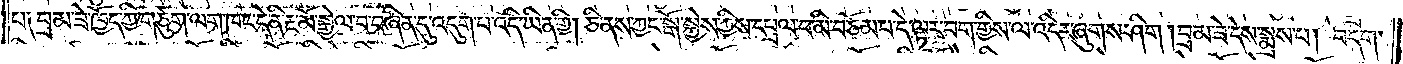པ༑ བྲམ་ཟེ་ཁྱོད་ཀྱི་གཙུག་ལག་ཁང་དེ་ནི་རྔ་མོ་སྒྱེལ་བ་བཞིན་དུ་འདུག་པ་འདི་ཡིན་གྱི། ཅི་ནས་ཀྱང་སྒོ་སྐྱེས་ཀྱིས་དཔྲལ་བ་མི་བཅོམ་པ་དེ་ལྟར་བག་གྱིས་ལ་འདིར་ཞུགས་ཤིག །བྲམ་ཟེ་དེས་སྨྲས་པ། བདག་
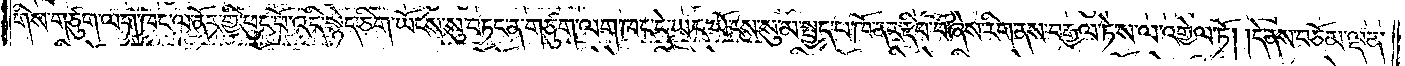གིས་གཙུག་ལག་ཁང་ལ་ནོར་གྱི་ཕུང་པོ་འདི་སྙེད་ཅིག་ཡོངས་སུ་བཏང་ན་གཙུག་ལག་ཁང་དེ་ཡང་ཡོངས་སུ་མ་སྤྱད་པ་ཁོ་ནར་རྡིབ་བོ་ཞེས་རིག་ནས་བརྒྱལ་ཏེ་ས་ལ་འགྱེལ་ཏོ། །དེ་ནས་བཅོམ་ལྡན་
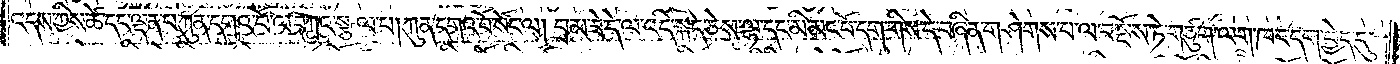འདས་ཀྱིས་ཚེ་དང་ལྡན་པ་ཀུན་དགའ་བོ་ལ་བཀའ་སྩལ་པ། ཀུན་དགའ་བོ་སོང་ལ། བྲམ་ཟེ་དེ་ལ་འདི་སྐད་ཅེས་ལྷ་དང་མི་མང་པོ་དག་གིས་དེ་བཞིན་གཤེགས་པ་ལ་བསྔོས་ཏེ་གཙུག་ལག་ཁང་དག་བྱེད་དུ་
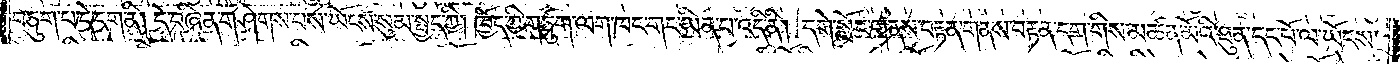བཅུག་པ་དེ་དག་ནི། དེ་བཞིན་གཤེགས་པས་ཡོངས་སུ་མ་སྤྱད་ཀྱི། ཁྱོད་ཀྱི་གཙུག་ལག་ཁང་གང་ཡིན་པ་འདི་ནི། དགེ་སློང་གནས་བརྟན་གནས་བརྟན་དག་གིས་མཚན་མོའི་ཐུན་དང་པོ་ལ་ཡོངས་
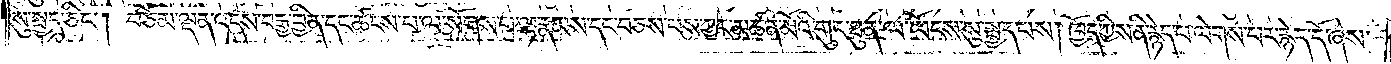སུ་སྤྱད་ཅིང༌། བཅོམ་ལྡན་འདས་བརྒྱ་བྱིན་དང་ཚངས་པ་ལ་སོགས་པ་ལྷ་རྣམས་དང་བཅས་པས་ཀྱང་མཚན་མོའི་གུང་ཐུན་ལ་ཡོངས་སུ་སྤྱད་པས། ཁྱོད་ཀྱིས་ནི་རྙེད་པ་ལེགས་པར་རྙེད་དོ་ཞེས་
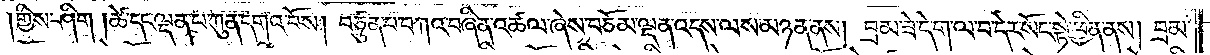གྱིས་ཤིག །ཚེ་དང་ལྡན་པ་ཀུན་དགའ་བོས། བཙུན་པ་བཀའ་བཞིན་འཚལ་ཞེས་བཅོམ་ལྡན་འདས་ལས་མཉན་ནས། བྲམ་ཟེ་དེ་ག་ལ་བ་དེར་སོང་སྟེ་ཕྱིན་ནས། བྲམ་
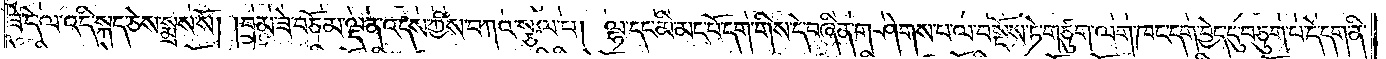ཟེ་དེ་ལ་འདི་སྐད་ཅེས་སྨྲས་སོ། །བྲམ་ཟེ་བཅོམ་ལྡན་འདས་ཀྱིས་བཀའ་སྩལ་པ། ལྷ་དང་མི་མང་པོ་དག་གིས་དེ་བཞིན་གཤེགས་པ་ལ་བསྔོས་ཏེ་གཙུག་ལག་ཁང་དག་བྱེད་དུ་བཅུག་པ་དེ་དག་ནི་
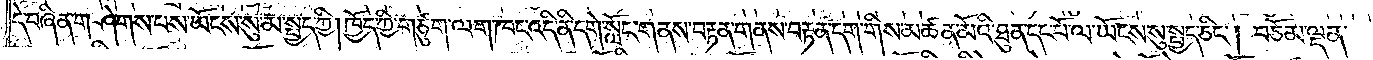དེ་བཞིན་གཤེགས་པས་ཡོངས་སུ་མ་སྤྱད་ཀྱི། ཁྱོད་ཀྱི་གཙུག་ལག་ཁང་འདི་ནི་དགེ་སློང་གནས་བརྟན་གནས་བརྟན་དག་གིས་མཚན་མོའི་ཐུན་དང་པོ་ལ་ཡོངས་སུ་སྤྱད་ཅིང༌། བཅོམ་ལྡན་
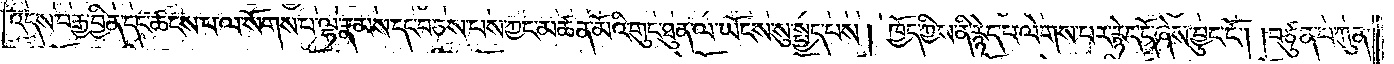འདས་བརྒྱ་བྱིན་དང་ཚངས་པ་ལ་སོགས་པ་ལྷ་རྣམས་དང་བཅས་པས་ཀྱང་མཚན་མོའི་གུང་ཐུན་ལ་ཡོངས་སུ་སྤྱད་པས། ཁྱོད་ཀྱིས་ནི་རྙེད་པ་ལེགས་པར་རྙེད་དོ་ཞེས་བྱུང་ངོ༌། །བཙུན་པ་ཀུན་
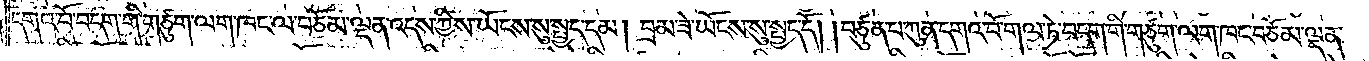དགའ་བོ་བདག་གི་གཙུག་ལག་ཁང་ལ་བཅོམ་ལྡན་འདས་ཀྱིས་ཡོངས་སུ་སྤྱད་དམ། བྲམ་ཟེ་ཡོངས་སུ་སྤྱད་དོ། །བཙུན་པ་ཀུན་དགའ་བོ་གལ་ཏེ་བདག་གི་གཙུག་ལག་ཁང་བཅོམ་ལྡན་
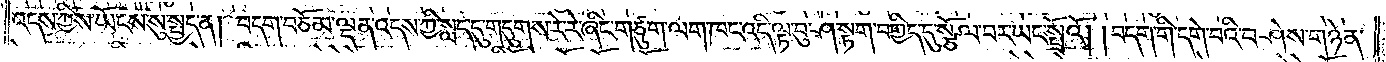འདས་ཀྱིས་ཡོངས་སུ་སྤྱད་ན། བདག་བཅོམ་ལྡན་འདས་ཀྱི་སླད་དུ་གདུགས་རེ་རེ་ཞིང་གཙུག་ལག་ཁང་འདི་ལྟ་བུ་ཤ་སྟག་བགྱིད་དུ་སྩོལ་བར་ཡང་སྤྲོའོ། །བདག་གི་དགེ་བའི་བཤེས་གཉེན་
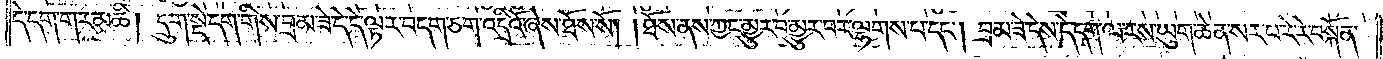དེ་དག་གར་མཆི། དྲུག་སྡེ་དག་གིས་བྲམ་ཟེ་དེ་དེ་ལྟར་བདག་ཅག་འདྲིའོ་ཞེས་ཐོས་སོ། །ཐོས་ནས་ཀྱང་མྱུར་བ་མྱུར་བར་ལྷགས་པ་དང༌། བྲམ་ཟེ་དེས་དེ་དག་ལ་རས་ཡུག་ཆེན་སར་པ་རེ་རེ་བསྐོན་
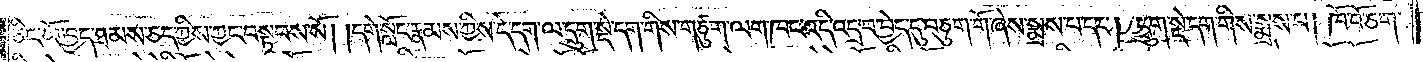ཅིང་ཡོ་བྱད་ཐམས་ཅད་ཀྱིས་ཀྱང་བསྟབས་སོ། །དགེ་སློང་རྣམས་ཀྱིས་དེ་དག་ལ་དྲུག་སྡེ་དག་གིས་གཙུག་ལག་ཁང་འདི་འདྲ་བ་བྱེད་དུ་བཅུག་གོ་ཞེས་སྨྲས་པ་དང༌། དྲུག་སྡེ་དག་གིས་སྨྲས་པ། ཁོ་བོ་ཅག་
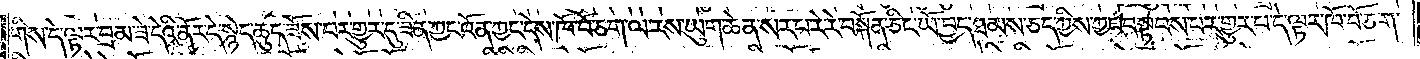གིས་དེ་ལྟར་བྲམ་ཟེ་དེའི་ནོར་དེ་སྙེད་ཆུད་ཟོས་པར་གྱུར་དུ་ཟིན་ཀྱང་འོན་ཀྱང་དེས་ཁོ་བོ་ཅག་ལ་རས་ཡུག་ཆེན་སར་པ་རེ་རེ་བསྐོན་ཅིང་ཡོ་བྱད་ཐམས་ཅད་ཀྱིས་ཀྱང་བསྟབས་པར་གྱུར་པ་དེ་ལྟར་ཁོ་བོ་ཅག་
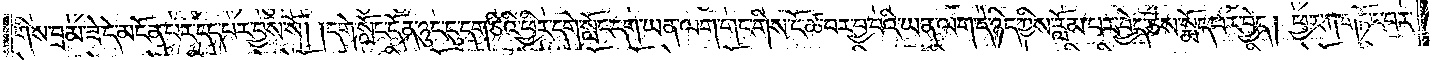གིས་བྲམ་ཟེ་དེ་མངོན་པར་དད་པར་བྱས་སོ། །དགེ་སློང་དོན་ཉུང་ངུ་དག་ཅིའི་ཕྱིར་དགེ་སློང་དག་ཡན་ལག་གང་གིས་ངོ་ཚ་བར་བྱ་བའི་ཡན་ལག་དེ་ཉིད་ཀྱིས་རློམ་པར་བྱེད་ཅེས་སྨོད་པར་བྱེད། ཕྱར་ཀ་གཏོང་བར་
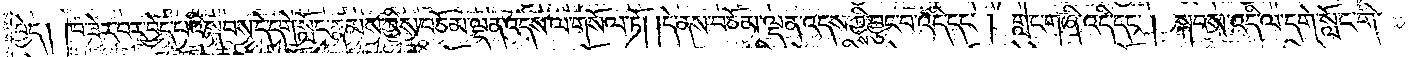བྱེད། ཁ་ཟེར་བར་བྱེད་པའི་སྐབས་དེ་དགེ་སློང་རྣམས་ཀྱིས་བཅོམ་ལྡན་འདས་ལ་གསོལ་ཏོ། །དེ་ནས་བཅོམ་ལྡན་འདས་ཀྱི་བྱུང་བ་འདི་དང༌། གླེང་གཞི་འདི་དང༌། སྐབས་འདི་ལ་དགེ་སློང་གི་
